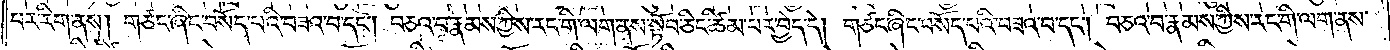པར་རིག་ནས། གཙང་ཞིང་བསོད་པའི་བཟའ་བ་དང༌། བཅའ་བ་རྣམས་ཀྱིས་རང་གི་ལག་ནས་སྟོབ་ཅིང་ཚིམ་པར་བྱེད་དེ། གཙང་ཞིང་བསོད་པའི་བཟའ་བ་དང༌། བཅའ་བ་རྣམས་ཀྱིས་རང་གི་ལག་ནས་
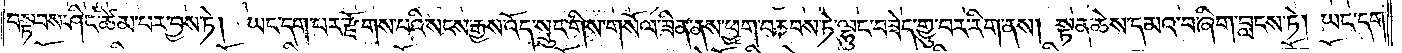བསྟབས་ཤིང་ཚིམ་པར་བྱས་ཏེ། ཡང་དག་པར་རྫོགས་པའི་སངས་རྒྱས་འོད་སྲུང་གིས་གསོལ་ཟིན་ནས་ཕྱག་བཅབས་ཏེ་ལྷུང་བཟེད་གྱུ་བར་རིག་ནས། སྟན་ཆེས་དམའ་བ་ཞིག་བླངས་ཏེ། ཡང་དག་
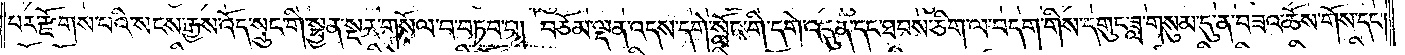པར་རྫོགས་པའི་སངས་རྒྱས་འོད་སྲུང་གི་སྤྱན་སྔར་གསོལ་བ་བཏབ་པ། བཅོམ་ལྡན་འདས་དགེ་སློང་གི་དགེ་འདུན་དང་ཐབས་ཅིག་ལ་བདག་གིས་དགུང་ཟླ་གསུམ་དུ་ན་བཟའ་ཆོས་གོས་དང༌།
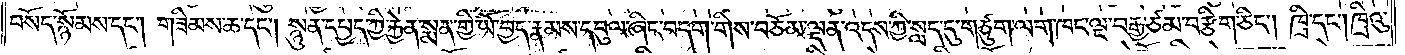བསོད་སྙོམས་དང༌། གཟིམས་ཆ་དང༌། སྙུན་དཔྱད་ཀྱི་རྐྱེན་སྨན་གྱི་ཡོ་བྱད་རྣམས་དབུལ་ཞིང་བདག་གིས་བཅོམ་ལྡན་འདས་ཀྱི་སླད་དུ་གཙུག་ལག་ཁང་ལྔ་བརྒྱ་ཙམ་བརྩིག་ཅིང༌། ཁྲི་དང༌། ཁྲིའུ་
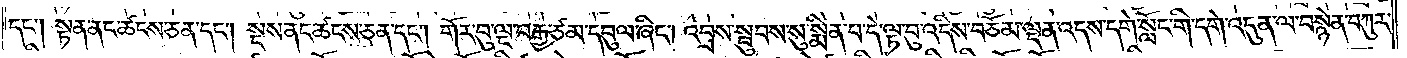དང༌། སྟན་ནང་ཚངས་ཅན་དང༌། སྔས་ནང་ཚངས་ཅན་དང༌། གོར་བུ་ལྔ་བརྒྱ་ཙམ་དབུལ་ཞིང༌། འབྲས་སྦུབས་སུ་སྨིན་པ་དེ་ལྟ་བུ་འདིས་བཅོམ་ལྡན་འདས་དགེ་སློང་གི་དགེ་འདུན་ལ་བསྙེན་བཀུར་
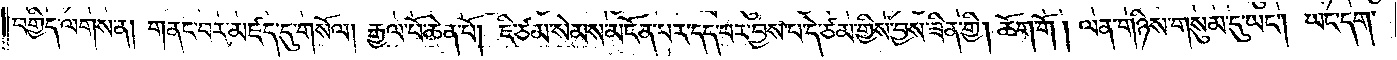བགྱིད་ལགས་ན། གནང་བར་མཛད་དུ་གསོལ། རྒྱལ་པོ་ཆེན་པོ། ཇི་ཙམ་སེམས་མངོན་པར་དད་པར་བྱས་པ་དེ་ཙམ་གྱིས་བྱས་ཟིན་གྱི། ཆོག་གོ །ལན་གཉིས་གསུམ་དུ་ཡང༌། ཡང་དག་
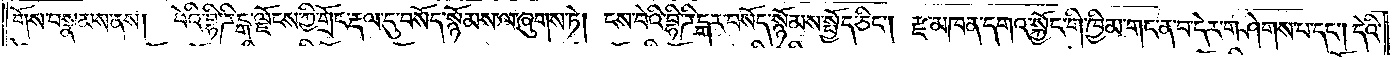གོས་བསྣམས་ནས།  བེའི་བྷི་ཌིངྒ་ལྗོངས་ཀྱི་གྲོང་རྡལ་དུ་བསོད་སྙོམས་ལ་ཞུགས་ཏེ། ངས་བེའི་བྷི་ཌིངྒར་བསོད་སྙོམས་སྤྱོད་ཅིང༌། རྫ་མཁན་དགའ་སྐྱོང་གི་ཁྱིམ་གང་ན་བ་དེར་གཤེགས་པ་དང༌། དེའི་
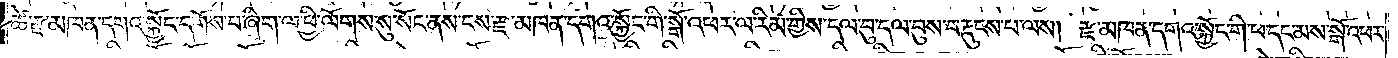ཚེ་རྫ་མཁན་དགའ་སྐྱོང་དགོས་པ་ཞིག་ལ་ཕྱི་ལོགས་སུ་སོང་ནས་ངས་རྫ་མཁན་དགའ་སྐྱོང་གི་སྒོ་འཕར་ལ་རིམ་གྱིས་དལ་བུ་དལ་བུས་བརྡུངས་པ་ལས། རྫ་མཁན་དགའ་སྐྱོང་གི་ཕ་དང་མས་སྒོ་འཕར་
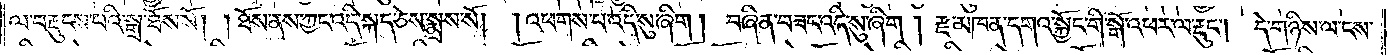ལ་བརྡུངས་པའི་སྒྲ་ཐོས་སོ། །ཐོས་ནས་ཀྱང་འདི་སྐད་ཅེས་སྨྲས་སོ། །འཕགས་པ་འདི་སུ་ཞིག། བཞིན་བཟང་འདི་སུ་ཞིག །རྫ་མཁན་དགའ་སྐྱོང་གི་སྒོ་འཕར་ལ་རྡུང༌། དེ་གཉིས་ལ་ངས་
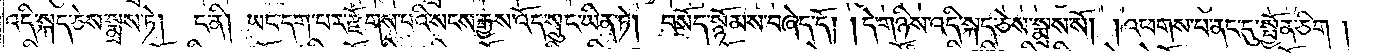འདི་སྐད་ཅེས་སྨྲས་ཏེ། ང་ནི། ཡང་དག་པར་རྫོགས་པའི་སངས་རྒྱས་འོད་སྲུང་ཡིན་ཏེ། བསོད་སྙོམས་བཞེད་དོ། །དེ་གཉིས་འདི་སྐད་ཅེས་སྨྲས་སོ། །འཕགས་པ་ནང་དུ་སྤྱོན་ཅིག་
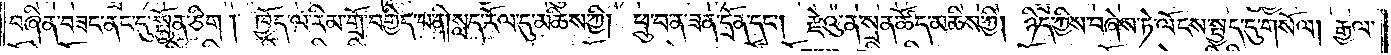བཞིན་བཟང་ནང་དུ་སྤྱོན་ཅིག །ཁྱོད་ལ་རིམ་གྲོ་བགྱིད་པ་ནི། སླད་རོལ་དུ་མཆིས་ཀྱི། ཕྲུ་བ་ན་ཟན་དྲོན་དང༌། རྫེའུ་ན་སྲན་ཚོད་མཆིས་ཀྱི། ཉིད་ཀྱིས་བཞེས་ཏེ་ལོངས་སྤྱད་དུ་གསོལ། རྒྱལ་
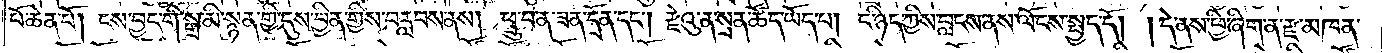པོ་ཆེན་པོ། ངས་བྱང་གི་སྒྲ་མི་སྙན་གྱི་དུས་བྱིན་གྱིས་བརླབས་ནས། ཕྲུ་བ་ན་ཟན་དྲོན་དང༌། རྫེའུ་ན་སྲན་ཚོད་ཡོད་པ། ང་ཉིད་ཀྱིས་བླངས་ནས་ལོངས་སྤྱད་དོ། །དེ་ནས་ཕྱི་ཞིག་ན་རྫ་མཁན་
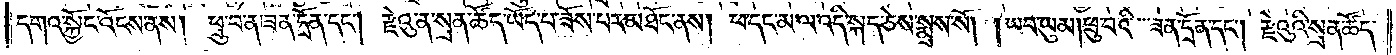དགའ་སྐྱོང་འོངས་ནས། ཕྲུ་བ་ན་ཟན་དྲོན་དང༌། རྫེའུ་ན་སྲན་ཚོད་ཡོད་པ་ཟོས་པར་མཐོང་ནས། ཕ་དང་མ་ལ་འདི་སྐད་ཅེས་སྨྲས་སོ། །ཡབ་ཡུམ། ཕྲུ་བའི་ཟན་དྲོན་དང༌། རྫེའུའི་སྲན་ཚོད་
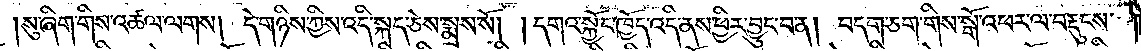།སུ་ཞིག་གིས་འཚལ་ལགས། དེ་གཉིས་ཀྱིས་འདི་སྐད་ཅེས་སྨྲས་སོ། །དགའ་སྐྱོང་ཁྱོད་འདི་ནས་ཕྱིར་བྱུང་བ་ན། བདག་ཅག་གིས་སྒོ་འཕར་ལ་བརྡུངས་
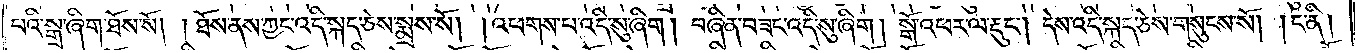པའི་སྒྲ་ཞིག་ཐོས་སོ། །ཐོས་ནས་ཀྱང་འདི་སྐད་ཅེས་སྨྲས་སོ། །འཕགས་པ་འདི་སུ་ཞིག། བཞིན་བཟང་འདི་སུ་ཞིག། སྒོ་འཕར་ལ་རྡུང༌། དེས་འདི་སྐད་ཅེས་གསུངས་སོ། །ང་ནི།
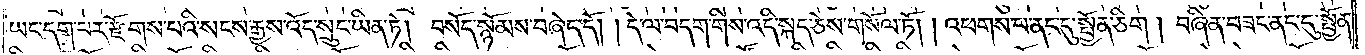ཡང་དག་པར་རྫོགས་པའི་སངས་རྒྱས་འོད་སྲུང་ཡིན་ཏེ། བསོད་སྙོམས་བཞེད་དོ། །དེ་ལ་བདག་གིས་འདི་སྐད་ཅེས་གསོལ་ཏོ། །འཕགས་པ་ནང་དུ་སྤྱོན་ཅིག། བཞིན་བཟང་ནང་དུ་སྤྱོན་
